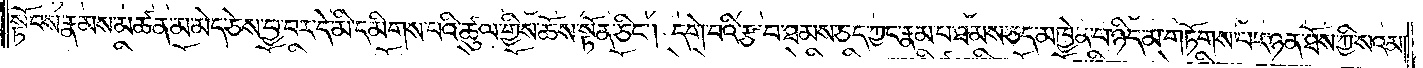སྟོབས་རྣམས་མཚན་མ་མེད་ཅེས་བྱ་བར་དེ་མི་དམིགས་པའི་ཚུལ་གྱིས་ཆོས་སྟོན་ཅིང༌། དགེ་བའི་རྩ་བ་ཐམས་ཅད་ཀྱང་རྣམ་པ་ཐམས་ཅད་མཁྱེན་པ་ཉིད་མ་གཏོགས་པར་ཉན་ཐོས་ཀྱི་སའམ།
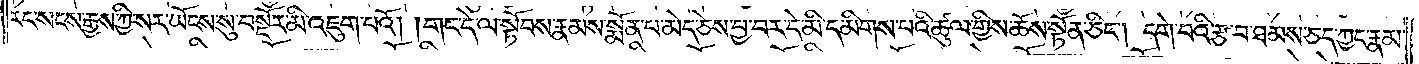རང་སངས་རྒྱས་ཀྱི་སར་ཡོངས་སུ་བསྔོར་མི་འཇུག་པའོ། །གང་དེ་ལ་སྟོབས་རྣམས་སྨོན་པ་མེད་ཅེས་བྱ་བར་དེ་མི་དམིགས་པའི་ཚུལ་གྱིས་ཆོས་སྟོན་ཅིང༌། དགེ་བའི་རྩ་བ་ཐམས་ཅད་ཀྱང་རྣམ་
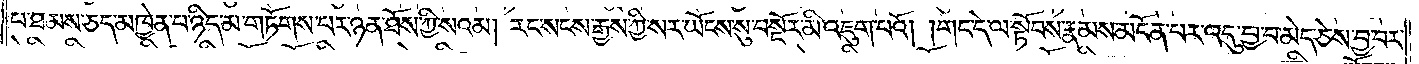པ་ཐམས་ཅད་མཁྱེན་པ་ཉིད་མ་གཏོགས་པར་ཉན་ཐོས་ཀྱི་སའམ། རང་སངས་རྒྱས་ཀྱི་སར་ཡོངས་སུ་བསྔོར་མི་འཇུག་པའོ། །གང་དེ་ལ་སྟོབས་རྣམས་མངོན་པར་འདུ་བྱ་བ་མེད་ཅེས་བྱ་བར་
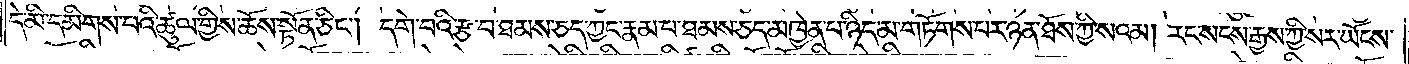དེ་མི་དམིགས་པའི་ཚུལ་གྱིས་ཆོས་སྟོན་ཅིང༌། དགེ་བའི་རྩ་བ་ཐམས་ཅད་ཀྱང་རྣམ་པ་ཐམས་ཅད་མཁྱེན་པ་ཉིད་མ་གཏོགས་པར་ཉན་ཐོས་ཀྱི་སའམ། རང་སངས་རྒྱས་ཀྱི་སར་ཡོངས་
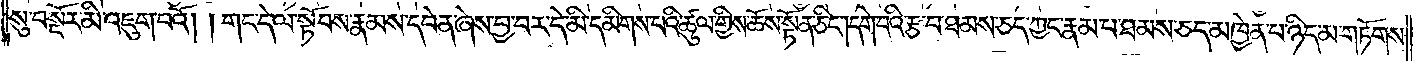སུ་བསྔོར་མི་འཇུག་པའོ། །གང་དེ་ལ་སྟོབས་རྣམས་དབེན་ཞེས་བྱ་བར་དེ་མི་དམིགས་པའི་ཚུལ་གྱིས་ཆོས་སྟོན་ཅིང༌། དགེ་བའི་རྩ་བ་ཐམས་ཅད་ཀྱང་རྣམ་པ་ཐམས་ཅད་མཁྱེན་པ་ཉིད་མ་གཏོགས་
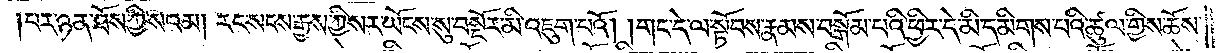བར་ཉན་ཐོས་ཀྱི་སའམ། རང་སངས་རྒྱས་ཀྱི་སར་ཡོངས་སུ་བསྔོར་མི་འཇུག་པའོ། །གང་དེ་ལ་སྟོབས་རྣམས་བསྒོམ་པའི་ཕྱིར་དེ་མི་དམིགས་པའི་ཚུལ་གྱིས་ཆོས་
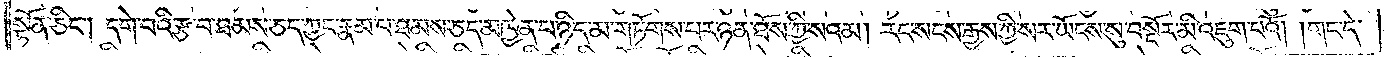སྟོན་ཅིང༌། དགེ་བའི་རྩ་བ་ཐམས་ཅད་ཀྱང་རྣམ་པ་ཐམས་ཅད་མཁྱེན་པ་ཉིད་མ་གཏོགས་པར་ཉན་ཐོས་ཀྱི་སའམ། རང་སངས་རྒྱས་ཀྱི་སར་ཡོངས་སུ་བསྔོར་མི་འཇུག་པའོ། །གང་དེ་
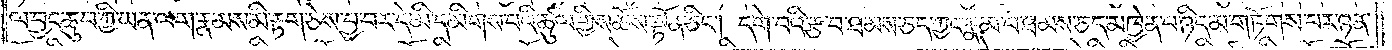ལ་བྱང་ཆུབ་ཀྱི་ཡན་ལག་རྣམས་མི་རྟག་ཅེས་བྱ་བར་དེ་མི་དམིགས་པའི་ཚུལ་གྱིས་ཆོས་སྟོན་ཅིང༌། དགེ་བའི་རྩ་བ་ཐམས་ཅད་ཀྱང་རྣམ་པ་ཐམས་ཅད་མཁྱེན་པ་ཉིད་མ་གཏོགས་པར་ཉན་
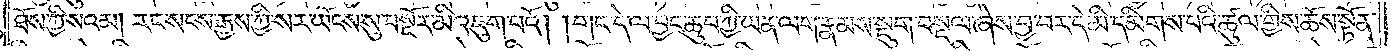ཐོས་ཀྱི་སའམ། རང་སངས་རྒྱས་ཀྱི་སར་ཡོངས་སུ་བསྔོར་མི་འཇུག་པའོ། །གང་དེ་ལ་བྱང་ཆུབ་ཀྱི་ཡན་ལག་རྣམས་སྡུག་བསྔལ་ཞེས་བྱ་བར་དེ་མི་དམིགས་པའི་ཚུལ་གྱིས་ཆོས་སྟོན་
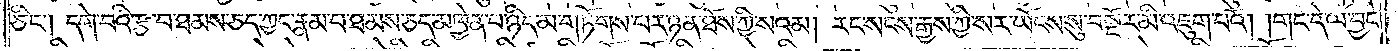ཅིང༌། དགེ་བའི་རྩ་བ་ཐམས་ཅད་ཀྱང་རྣམ་པ་ཐམས་ཅད་མཁྱེན་པ་ཉིད་མ་གཏོགས་པར་ཉན་ཐོས་ཀྱི་སའམ། རང་སངས་རྒྱས་ཀྱི་སར་ཡོངས་སུ་བསྔོར་མི་འཇུག་པའོ། །གང་དེ་ལ་བྱང་
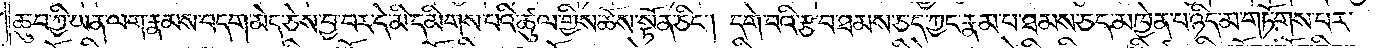ཆུབ་ཀྱི་ཡན་ལག་རྣམས་བདག་མེད་ཅེས་བྱ་བར་དེ་མི་དམིགས་པའི་ཚུལ་གྱིས་ཆོས་སྟོན་ཅིང༌། དགེ་བའི་རྩ་བ་ཐམས་ཅད་ཀྱང་རྣམས་པ་ཐམས་ཅད་མཁྱེན་པ་ཉིད་མ་གཏོགས་པར་
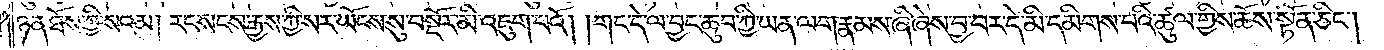ཉན་ཐོས་ཀྱི་སའམ། རང་སངས་རྒྱས་ཀྱི་སར་ཡོངས་སུ་བསྔོར་མི་འཇུག་པའོ། །གང་དེ་ལ་བྱང་ཆུབ་ཀྱི་ཡན་ལག་རྣམས་ཞི་ཞེས་བྱ་བར་དེ་མི་དམིགས་པའི་ཚུལ་གྱིས་ཆོས་སྟོན་ཅིང༌།
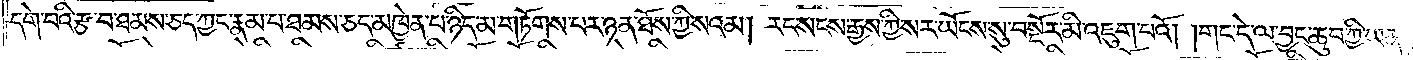དགེ་བའི་རྩ་བ་ཐམས་ཅད་ཀྱང་རྣམ་པ་ཐམས་ཅད་མཁྱེན་པ་ཉིད་མ་གཏོགས་པར་ཉན་ཐོས་ཀྱི་སའམ། རང་སངས་རྒྱས་ཀྱི་སར་ཡོངས་སུ་བསྔོར་མི་འཇུག་པའོ། །གང་དེ་ལ་བྱང་ཆུབ་ཀྱི་ཡན་
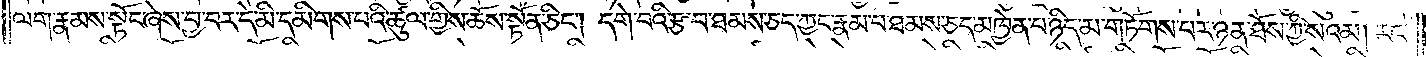ལག་རྣམས་སྟོང་ཞེས་བྱ་བར་དེ་མི་དམིགས་པའི་ཚུལ་གྱིས་ཆོས་སྟོན་ཅིང༌། དགེ་བའི་རྩ་བ་ཐམས་ཅད་ཀྱང་རྣམ་པ་ཐམས་ཅད་མཁྱེན་པ་ཉིད་མ་གཏོགས་པར་ཉན་ཐོས་ཀྱི་སའམ། རང་
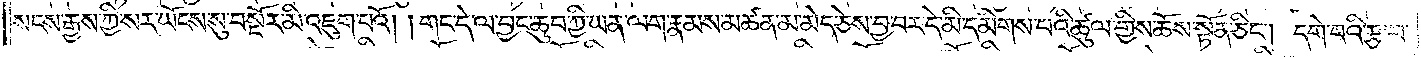སངས་རྒྱས་ཀྱི་སར་ཡོངས་སུ་བསྔོར་མི་འཇུག་པའོ། །གང་དེ་ལ་བྱང་ཆུབ་ཀྱི་ཡན་ལག་རྣམས་མཚན་མ་མེད་ཅེས་བྱ་བར་དེ་མི་དམིགས་པའི་ཚུལ་གྱིས་ཆོས་སྟོན་ཅིང༌། དགེ་བའི་རྩ་བ་
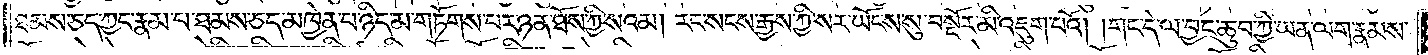ཐམས་ཅད་ཀྱང་རྣམ་པ་ཐམས་ཅད་མཁྱེན་པ་ཉིད་མ་གཏོགས་པར་ཉན་ཐོས་ཀྱི་སའམ། རང་སངས་རྒྱས་ཀྱི་སར་ཡོངས་སུ་བསྔོར་མི་འཇུག་པའོ། །གང་དེ་ལ་བྱང་ཆུབ་ཀྱི་ཡན་ལག་རྣམས་
